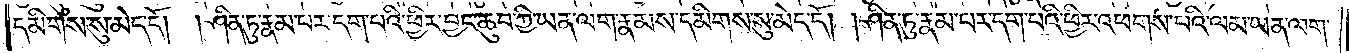དམིགས་སུ་མེད་དོ། །ཤིན་ཏུ་རྣམ་པར་དག་པའི་ཕྱིར་བྱང་ཆུབ་ཀྱི་ཡན་ལག་རྣམས་དམིགས་སུ་མེད་དོ། །ཤིན་ཏུ་རྣམ་པར་དག་པའི་ཕྱིར་འཕགས་པའི་ལམ་ཡན་ལག་
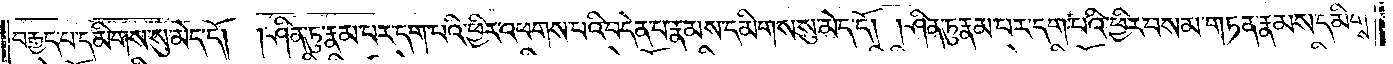བརྒྱད་པ་དམིགས་སུ་མེད་དོ། །ཤིན་ཏུ་རྣམ་པར་དག་པའི་ཕྱིར་འཕགས་པའི་བདེན་པ་རྣམས་དམིགས་སུ་མེད་དོ། །ཤིན་ཏུ་རྣམ་པར་དག་པའི་ཕྱིར་བསམ་གཏན་རྣམས་དམིགས་
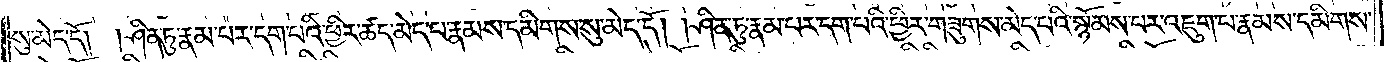སུ་མེད་དོ། །ཤིན་ཏུ་རྣམ་པར་དག་པའི་ཕྱིར་ཚད་མེད་པ་རྣམས་དམིགས་སུ་མེད་དོ། །ཤིན་ཏུ་རྣམ་པར་དག་པའི་ཕྱིར་གཟུགས་མེད་པའི་སྙོམས་པར་འཇུག་པ་རྣམས་དམིགས་
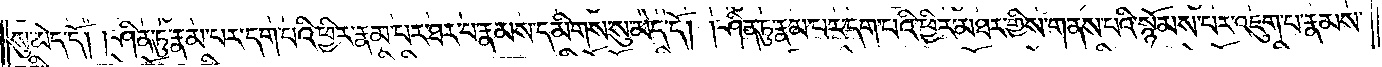སུ་མེད་དོ། །ཤིན་ཏུ་རྣམ་པར་དག་པའི་ཕྱིར་རྣམ་པར་ཐར་པ་རྣམས་དམིགས་སུ་མེད་དོ། །ཤིན་ཏུ་རྣམ་པར་དག་པའི་ཕྱིར་མཐར་གྱིས་གནས་པའི་སྙོམས་པར་འཇུག་པ་རྣམས་
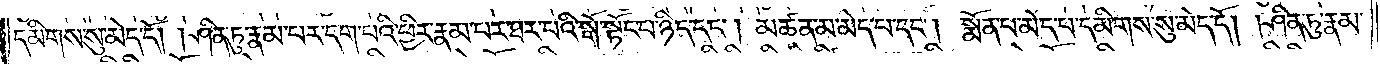དམིགས་སུ་མེད་དོ། །ཤིན་ཏུ་རྣམ་པར་དག་པའི་ཕྱིར་རྣམ་པར་ཐར་པའི་སྒོ་སྟོང་པ་ཉིད་དང༌། མཚན་མ་མེད་པ་དང༌། སྨོན་པ་མེད་པ་དམིགས་སུ་མེད་དོ། །ཤིན་ཏུ་རྣམ་
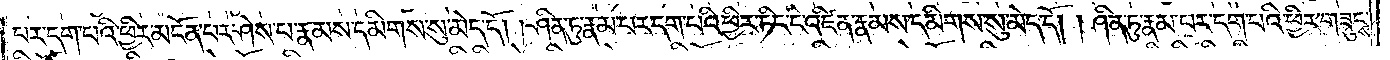པར་དག་པའི་ཕྱིར་མངོན་པར་ཤེས་པ་རྣམས་དམིགས་སུ་མེད་དོ། །ཤིན་ཏུ་རྣམ་པར་དག་པའི་ཕྱིར་ཏིང་ངེ་འཛིན་རྣམས་དམིགས་སུ་མེད་དོ། །ཤིན་ཏུ་རྣམ་པར་དག་པའི་ཕྱིར་གཟུངས་
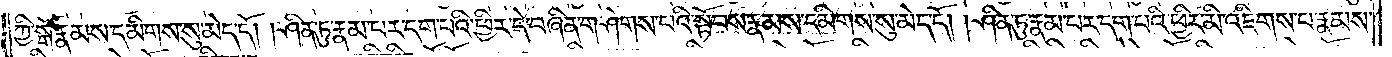ཀྱི་སྒོ་རྣམས་དམིགས་སུ་མེད་དོ། །ཤིན་ཏུ་རྣམ་པར་དག་པའི་ཕྱིར་དེ་བཞིན་གཤེགས་པའི་སྟོབས་རྣམས་དམིགས་སུ་མེད་དོ། །ཤིན་ཏུ་རྣམ་པར་དག་པའི་ཕྱིར་མི་འཇིགས་པ་རྣམས་
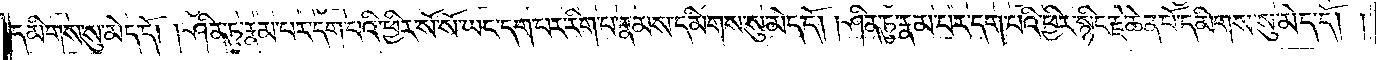དམིགས་སུ་མེད་དོ། །ཤིན་ཏུ་རྣམ་པར་དག་པའི་ཕྱིར་སོ་སོ་ཡང་དག་པར་རིག་པ་རྣམས་དམིགས་སུ་མེད་དོ། །ཤིན་ཏུ་རྣམ་པར་དག་པའི་ཕྱིར་སྙིང་རྗེ་ཆེན་པོ་དམིགས་སུ་མེད་དོ། །
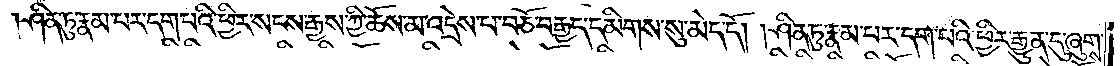ཤིན་ཏུ་རྣམ་པར་དག་པའི་ཕྱིར་སངས་རྒྱས་ཀྱི་ཆོས་མ་འདྲེས་པ་བཅོ་བརྒྱད་དམིགས་སུ་མེད་དོ། །ཤིན་ཏུ་རྣམ་པར་དག་པའི་ཕྱིར་རྒྱུན་དུ་ཞུགས་
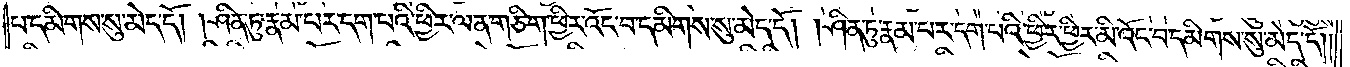པ་དམིགས་སུ་མེད་དོ། །ཤིན་ཏུ་རྣམ་པར་དག་པའི་ཕྱིར་ལན་གཅིག་ཕྱིར་འོང་བ་དམིགས་སུ་མེད་དོ། །ཤིན་ཏུ་རྣམ་པར་དག་པའི་ཕྱིར་ཕྱིར་མི་འོང་བ་དམིགས་སུ་མེད་དོ༎
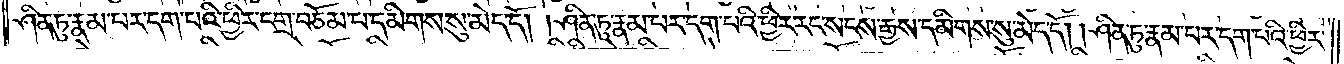ཤིན་ཏུ་རྣམ་པར་དག་པའི་ཕྱིར་དགྲ་བཅོམ་པ་དམིགས་སུ་མེད་དོ། །ཤིན་ཏུ་རྣམ་པར་དག་པའི་ཕྱིར་རང་སངས་རྒྱས་དམིགས་སུ་མེད་དོ། །ཤིན་ཏུ་རྣམ་པར་དག་པའི་ཕྱིར་
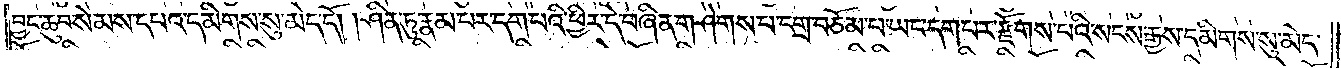བྱང་ཆུབ་སེམས་དཔའ་དམིགས་སུ་མེད་དོ། །ཤིན་ཏུ་རྣམ་པར་དག་པའི་ཕྱིར་དེ་བཞིན་གཤེགས་པ་དགྲ་བཅོམ་པ་ཡང་དག་པར་རྫོགས་པའི་སངས་རྒྱས་དམིགས་སུ་མེད་
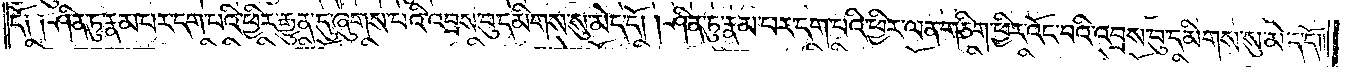དོ༑ ༑ཤིན་ཏུ་རྣམ་པར་དག་པའི་ཕྱིར་རྒྱུན་དུ་ཞུགས་པའི་འབྲས་བུ་དམིགས་སུ་མེད་དོ། །ཤིན་ཏུ་རྣམ་པར་དག་པའི་ཕྱིར་ལན་ཅིག་ཕྱིར་འོང་བའི་འབྲས་བུ་དམིགས་སུ་མེད་དོ། །
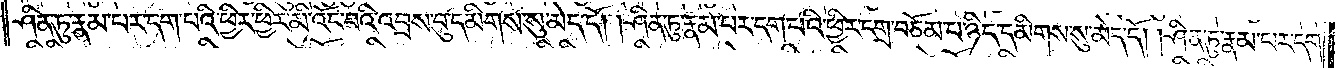ཤིན་ཏུ་རྣམ་པར་དག་པའི་ཕྱིར་ཕྱིར་མི་འོང་བའི་འབྲས་བུ་དམིགས་སུ་མེད་དོ། །ཤིན་ཏུ་རྣམ་པར་དག་པའི་ཕྱིར་དགྲ་བཅོམ་པ་ཉིད་དམིགས་སུ་མེད་དོ། །ཤིན་ཏུ་རྣམ་པར་དག་
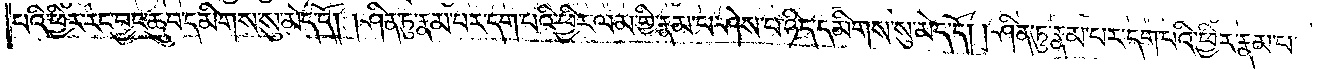པའི་ཕྱིར་རང་བྱང་ཆུབ་དམིགས་སུ་མེད་དོ། །ཤིན་ཏུ་རྣམ་པར་དག་པའི་ཕྱིར་ལམ་གྱི་རྣམ་པ་ཤེས་པ་ཉིད་དམིགས་སུ་མེད་དོ། །ཤིན་ཏུ་རྣམ་པར་དག་པའི་ཕྱིར་རྣམ་པ་
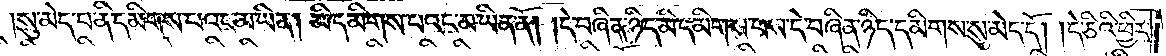སུ་མེད་པ་ནི་དམིགས་པའང་མ་ཡིན། མི་དམིགས་པའང་མ་ཡིན་ནོ། །དེ་བཞིན་ཉིད་མི་དམིགས་པས་དེ་བཞིན་ཉིད་དམིགས་སུ་མེད་དོ། །དེ་ཅིའི་ཕྱིར་
